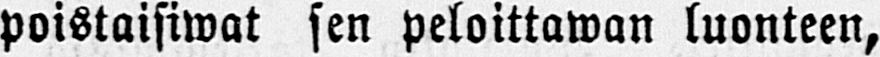poistaisiwat sen peloittawan luonteen,
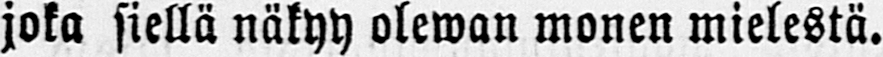joka siellä näkyy olewan monen mielestä.
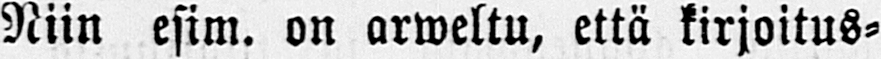Niin esim. on arweltu, että kirjoitus-
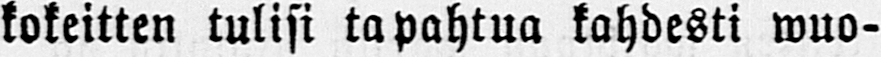kokeitten tulisi tapahtua kahdesti wuo-
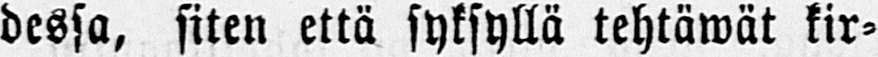dessa, siten että syksyllä tehtäwät kir-
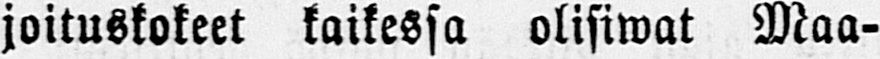joituskokeet kaikessa olisiwat Maa-
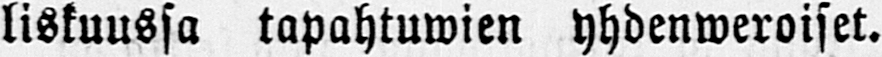liskuussa tapahtuwien yhdenweroiset.
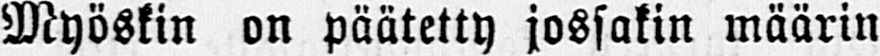Myöskin on päätetty jossakin määrin
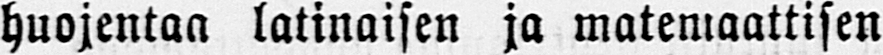huojentaa latinaisen ja matemaattisen
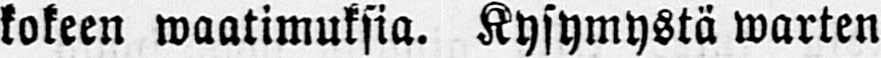kokeen waatimuksia. Kysymystä warten
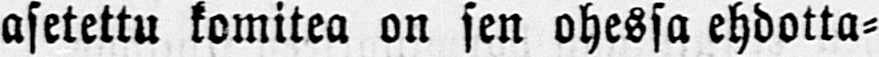asetettu komitea on sen ohessa ehdotta-
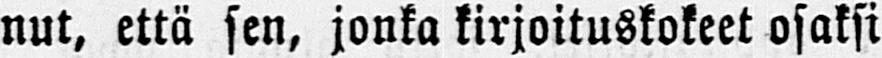nut, että sen, jonka kirjoituskokeet osaksi
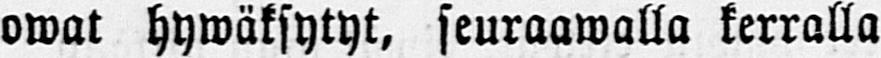owat hywäksytyt, seuraawalla kerralla
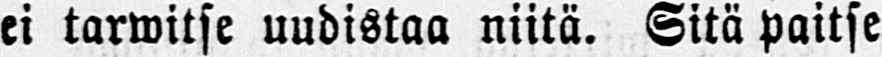ei tarwitse uudistaa niitä. Sitä paitse
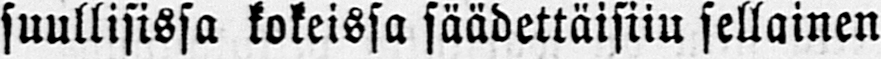suullisissa kokeissa säädettäisiin sellainen
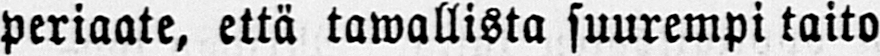periaate, että tawallista suurempi taito
